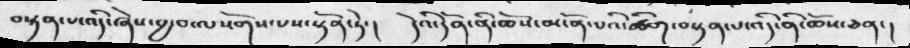བསྟན་པ་འདི་ཞེས་བྱ་བ་ལསོགས་པས་སྟོན་ཏེ་།   དེའི་དོན་ནི་ཆོས་མངོན་པའི་ཚིག་བསྟན་པ་འདི་ནི་ཆོས་ཅན་།
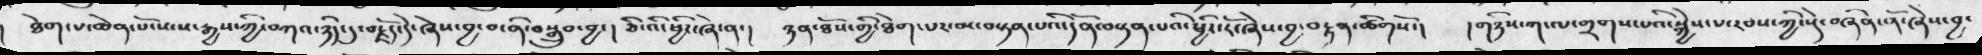ཐེག་པ་ཆེན་པོ་སངས་རྒྱས་ཀྱི་བཀའ་ཉིད་དུ་བརྗོད་དེ་ཞེས་བྱ་བ་ནི་བསྒྲུུབ་བྱ་།  ཅིའི་ཕྱིར་ཞེས་ན་།  ཉན་ཐོས་གྱི་ཐེག་པར་མ་བསྟན་པའི་དོན་བསྟན་པའི་ཕྱིར་རོ་ཞེས་བྱ་བརྟན་༙༙༙༙༙༙ཚིགསོ་།   ། གཉིས་ག་ལ་གྲགས་པའི་སྐྱེས་པ་རབས་ཀྱི་སྡེ་བཞིན་ནོ་ཞེས་བྱ་
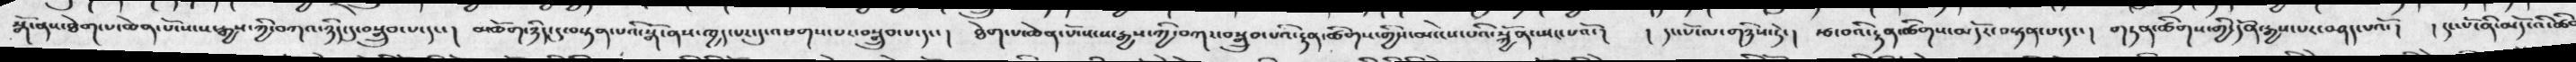སྒོ་ནས་ཐེག་པ་ཆེན་པོ་སངས་རྒྱས་ཀྱི་བཀའ་ཉིད་དུ་བསྒྲུུབ་པ་དང །  མཆོག་ཉིད་དུ་བསྟན་པའི་སྒོ་ནས་ཁྱད་པར་དུ་འཕགས་པར་བསྒྲུབ་པ་དང །  ཐེག་པ་ཆེན་པོ་སངས་རྒྱས་ཀྱི་བཀར་བསྒྲུབ་པའིརྟན་ཚིགས་གྱིས་མ་ངེས་པའི་སྐྱོན་སྤང་པའོ་།   ། དང་པོ་ལ་གཉིས་ཏེ་ །   རྩ་བའི་རྟན་ཚིགས་མདོར་བསྟན་པ་དང་ །  གཏན་ཚིགས་གྱི་དོན་རྒྱས་པར་བཤད་པའོ་ །   ། དང་པོ་ནི་མདོའི་ཚི་
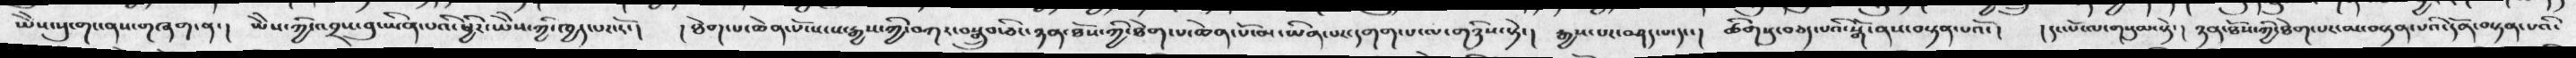ཡེེས་སུ་གང་ནས་གཞག་ན་།  ཡེེས་ཀྱི་འབྲས་བུ་ཡིན་པའི་ཕྱིར་ཡེེས་ཀྱི་ཁྱད་པར་རོ་།  །  ཐེག་པ་ཆེན་པོ་སངས་རྒྱས་ཀྱི་བཀའ་བསྒྲུབ་ཅིང་ཉན་ཐོས་ཀྱི་ཐེག་པ་ཆེན་པོ་མ་ཡིན་པར་དགག་པ་ལ་གཉིས་སྟེ་ །    རྒྱས་པར་བཤད་པ་དང་ །  ཚིགསུ་བཅད་པའི་སྒོ་ནས་བསྟན་པའོ་ །    ། དང་པོ་ལ་གསུམ་སྟེ་ །  ཉན་ཐོས་ཀྱི་ཐེག་པར་མ་བསྟན་པའི་དོན་བསྟན་པའི་
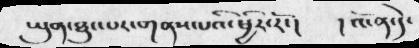ཡུན་ཐུང་པར་གནས་པའི་ཕྱིར་རོ་ །        །  འོ་ན་དེ་
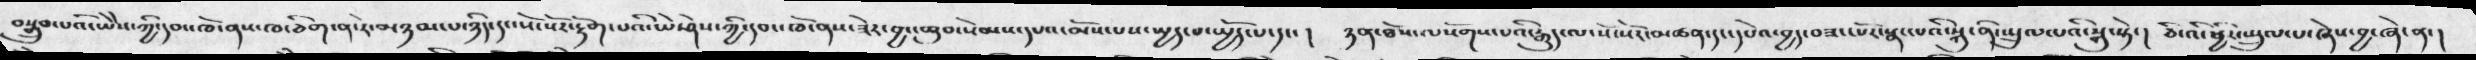བསྒྲུབ་པའོ་ཡེེས་ཀྱི་དབང་ཁོ་ནས་ཁ་ཅིག་ན་རེ་མཉམ་པ་ཉིད་དང་སོ་སོར་རྟོག་པའི་ཡེ་ཤེས་ཀྱི་དབང་ཁོ་ནས་ཟེར་བྱང་ཆུབ་སེམས་དཔའ་མོས་པས་སྤྱད་པ་སྤྱོད་པ་དང་ །  ཉན་ཐོས་ལསོགས་པའི་རྒྱུད་ལ་སོ་སོར་མཚན་དང་དཔེའ་བྱད་བཟང་པོར་སྣང་པའི་སྐུ་ནི་སྤྲུལ་པའི་སྐུ་སྟེ་ །  ཅི་འི་ཕྱིར་སྤྲུལ་པ་ཞེ་ན་ །
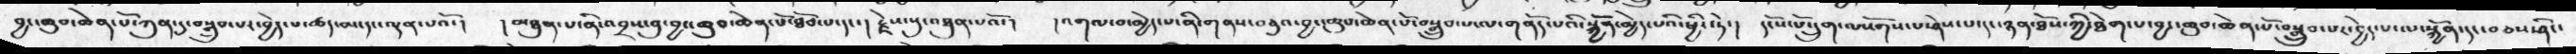བྱང་ཆུབ་ཆེན་པོ་ཀུན་དུ་བསྒྲུབ་པར་བྱེད་པ་ཚད་མ་དང་ལྡན་པའོ་།  །མཐུན་པ་ནི་འབྲས་བུ་བྱང་ཆུབ་ཆེན་པོ་ཐོབ་པ་དང་།   རྗེས་སུ་འཐུན་པའོ་།   །འགལ་བ་མྱེད་པ་ནི་གནས་བཅུའ་བྱང་ཆུབ་ཆེན་པོ་བསྒྲུབ་པ་ལ་གནོས་པའི་སྐྱོན་མྱེད་པའི་ཕྱིར་ཏེ་།  དངོས་པོ་དྲུག་ལསོགས་པ་ཉེས་པ་དང་ཉན་ཐོས་ཀྱི་ཐེག་པ་བྱང་ཆུབ་ཆེན་པོ་བསྒྲུབ་པར་བྱེད་པ་ལ་སྐྱོན་དང་བཅས་ཤིང་་
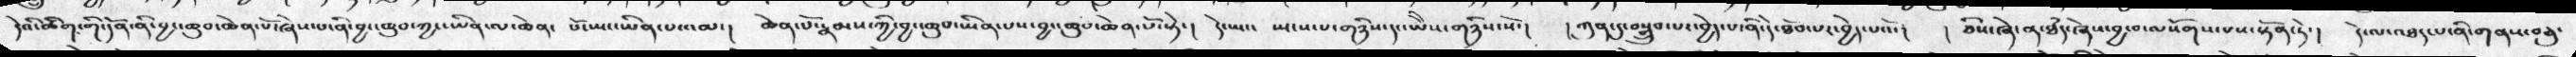དེའི་ཚིག་གི་དོན་ནི་བྱང་ཆུབ་ཆེན་པོ་ཞེས་པ་ནི་བྱང་ཆུབ་ཀྱང་ཡིན་ལ་ཆེན་  པོ་ཡང་ཡིན་པ་འམ་།   ཆེན་པོ་རྣམས་ཀྱི་བྱང་ཆུབ་ཡིན་པས་བྱང་ཆུབ་ཆེན་པོ་ཏེ་།  དེ་ཡང་   སྤངས་པ་གཉིས་དང་ཡེེས་གཉིས་སོ་།    །ཀུན་དུ་བསྒྲུབ་པར་བྱེད་པ་ནི་དེ་ཐོབ་པར་བྱེད་པའོ་།    ། ཅེས་ཞེ་ན་ཐཾད་ཞེས་བྱ་བ་ལསོགས་པས་སྟོན་ཏེ་།   དེ་ལ་འཐད་པ་ནི་གནས་བཅུ་
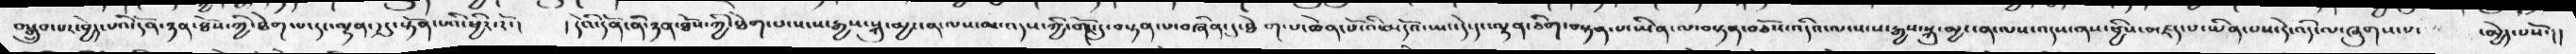བསྒྲུབ་པར་བྱེད་པའི་དོན་ཉན་ཐོས་ཀྱི་ཐེག་པ་དང་ལྷན་དདུ་སྟོན་པའི་ཕྱིར་རོ་།  །དེའི་དོན་ནི་ཉན་ཐོས་ཀྱི་ཐེག་པ་སངས་རྒྱས་སྐུ་མྱ་ངན་ལས་མ་འདས་ཀྱི་གོང་དུ་བསྟན་པ་བཞིན་དུ་ཐེག་པ་ཆེན་པོ་འི་མདོའ་ཡང་དེ་དང་ལྷན་ཅིག་བསྟན་པ་ཡིན་ལ་བསྟན་བཅོས་འདིའ་ལ་སངས་རྒྱས་སྐུ་མྱ་ངན་ལས་འདས་ནས་ཕྱིས་མཛད་པ་ཡིན་པས་དེ་འདི་ལ་ཞུགས་པ་  ་མྱེད་པསོ།།
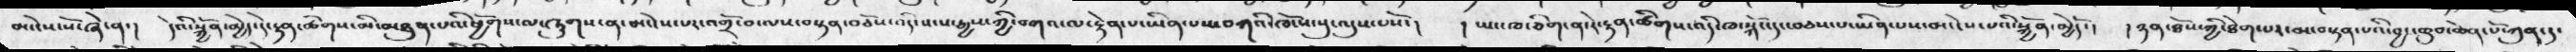མ་ངེས་སོ་ཞེ་ན་།   དེའི་སྐྱོན་མྱེད་དེ་རྟན་ཚིགས་མི་མཐུན་པའི་ཕྱོགས་ལ་ཞུགས་ན་མ་ངེས་པར་འགྲོ་བ་ལས་བསྟན་བཅོས་འདི་སངས་རྒྱས་ཀྱི་བཀའ་ལ་རྟེན་པ་ཡིན་པས་བཀའི་ཁོངས་སུ་འདུས་པསོ་།    །ཡང་ཁ་ཅིག་ན་རེ་རྟན་ཚིགས་འདི་ཁ་སྐོང་དང་བཅས་པ་ཡིན་པས་མ་ངེས་པའི་སྐྱོན་མྱེདོ་།      །ཉན་ཐོས་ཀྱི་ཐེག་པར་མ་བསྟན་པའི་བྱང་ཆུབ་ཆེན་པོ་ཀུན་དུ་
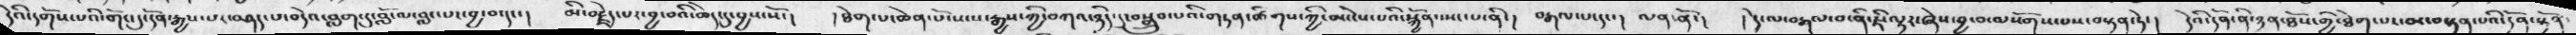དེའི་དགོས་པའི་གོང་དུ་དོན་རྒྱས་པར་བཤད་པ་བདེའ་བླག་དུ་བློ་ལ་བླང་པར་བྱ་བ་དང་།  མི་བརྗེད་པར་བྱ་བའི་ཆེད་དུ་བྱས་སོ་།   །ཐེག་པ་ཆེན་པོ་སངས་རྒྱས་ཀྱི་བཀའ་ཉིད་དུ་བསྒྲུབ་པའི་གཏན་ཚིགས་ཀྱི་མ་ངེས་པའི་སྐྱོན་སྤང་པ་ནི་།  བརྒལ་པ་དང་།  ལན་ནོ་།  །དེ་ལ་བརྒལ་བ་ནི་ཇི་ལྟར་ཞེས་བྱ་བ་ལསོགས་པས་བསྟན་ཏེ་།    དེའི་དོན་ནི་ཉན་ཐོས་གྱི་ཐེག་པ་མ་བསྟན་པའི་དོན་སྟོན་
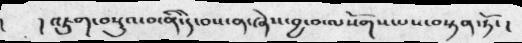།    །འཇུག་བསྡུའ་བ་ནི་དེ་བས་ན་ཞེས་བྱ་བ་ལསོགས་པས་བསྟན་ཏོ་།
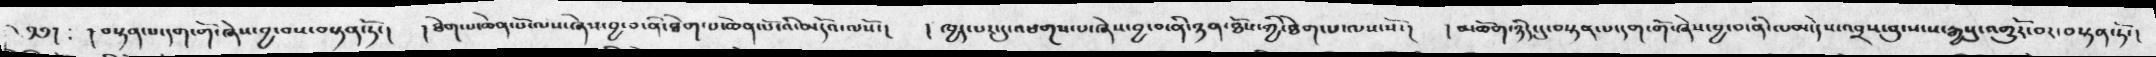༄༅།   །བསྟན་པ་དག་གོ་ཞེས་བྱ་བས་བསྟན་ཏོ་།   །ཐེག་པ་ཆེན་པོ་ལས་ཞེས་བྱ་བ་ནི་ཐེག་པ་ཆེན་པོ་འི་མདོའ་ལསོ་།  །ཁྱད་པར་དུ་འཕགས་པ་ཞེས་བྱ་བ་ནི་ལམ་དེས་འབྲས་བུ་སངས་རྒྱསུ་འགྱུརོ་བར་བསྟན་ཏོ་།
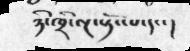ཉི་ཁྲི་ལྔ་སྟོང་པ་དང་།
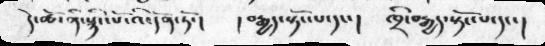དེ་ཆོ་སྟེ་སྙིང་པོ་འི་དོན་ཏོ་།   །བརྒྱད་སྟོང་པ་དང་།   ཁྲི་བརྒྱད་སྟོང་པ་དང་།
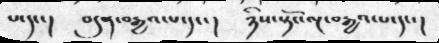པ་དང་།   བདུན་བརྒྱའ་པ་དང་།    ཉིས་སྟོང་ལྔ་བརྒྱའ་པ་དང་།
